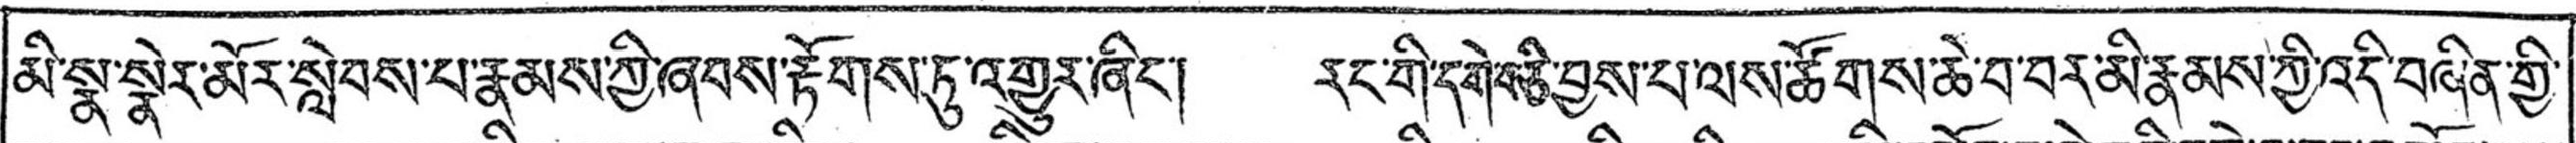མི་སྣ་སྣེར་མོར་སླེབས་པ་རྣམས་ཀྱི་ཞབས་རྟོགས་ཏུ་འགྱུར་ཞིང་། རང་གི་དགེ་བ་ཅི་བྱས་པ་ལས་ཚོགས་ཆེ་བ་བར་མི་རྣམས་ཀྱི་འདི་བཞིན་གྱི་
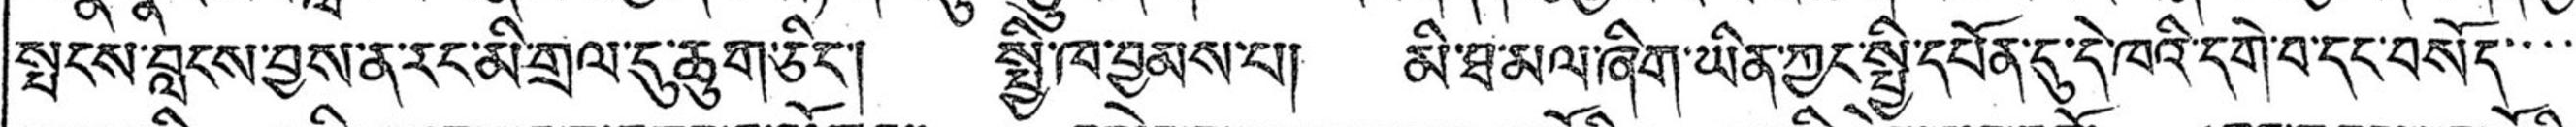སྤངས་བླངས་བྱས་ན་རང་མི་གྲལ་དུ་ཆུག་ཅིང་། སྤྱི་ཁ་བྱམས་པ། མི་ཐ་མལ་ཞིག་ཡིན་ཀྱང་སྤྱི་དཔོན་དུ་དེ་ཁའི་དགེ་བ་དང་བསོད་་་་
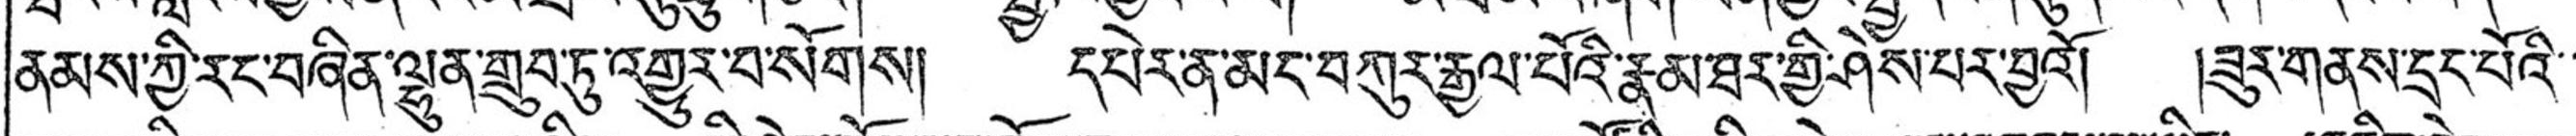ནམས་ཀྱི་རང་བཞིན་ལྷུན་གྲུབ་ཏུ་འགྱུར་བ་སོགས། དཔེར་ན་མང་བཀུར་རྒྱལ་པོའི་རྣམ་ཐར་གྱི་ཤེས་པར་བྱའོ། །ཟུར་གནས་དྲང་པོའི་་
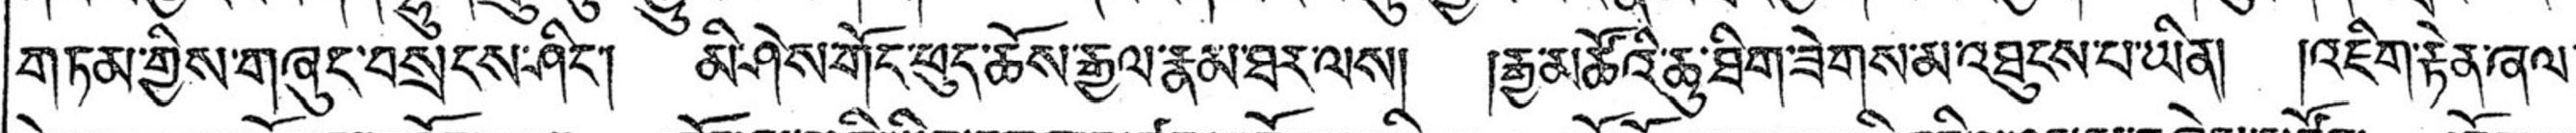གཏམ་གྱིས་གཞུང་བསྲངས་ཤིང་། མི་ཤེས་གོང་ཕུད་ཆོས་རྒྱལ་རྣམ་ཐར་ལས། །རྒྱ་མཚོའི་ཆུ་ཐིག་ཟེགས་མ་འཐུངས་པ་ཡིན། །འཇིག་རྟེན་ཞལ་
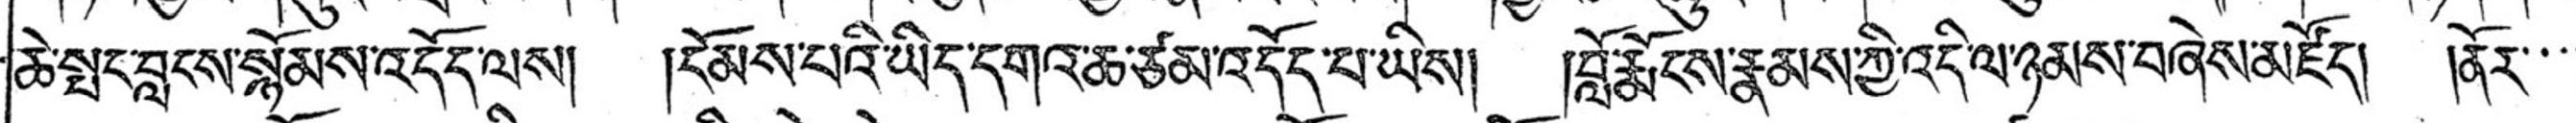ཆེ་སྤང་བླངས་སྙོམས་འདོད་ལས། །ངོམས་པའི་ཡིད་དགའ་ཆ་ཙམ་འདོད་པ་ཡིས། །བློ་རྨོངས་རྣམས་ཀྱི་འདི་ལ་ཉམས་བཞེས་མཛོད། །ནོར་་་
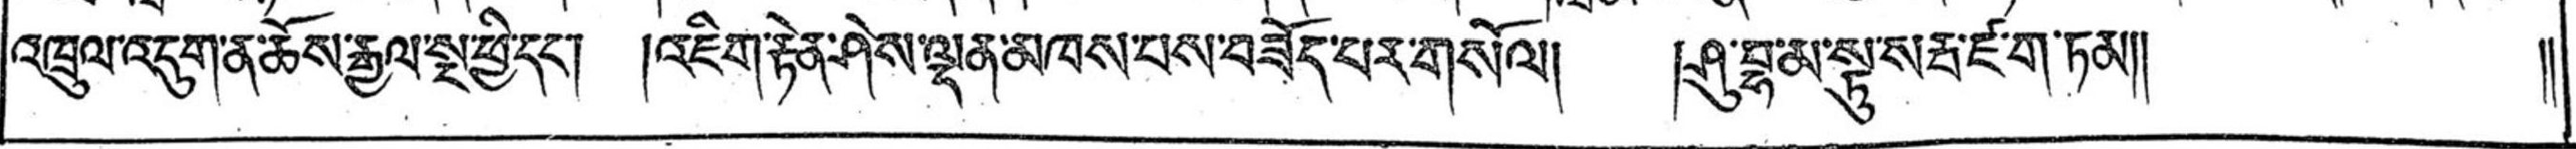འཁྲུལ་འདུག་ན་ཆོས་རྒྱལ་སྔ་ཕྱི་དང་། །འཇིག་རྟེན་ཤེས་ལྡན་མཁས་པས་བཟོད་པར་གསོལ། །ཤུ་བྷ་མ་སྟུ་སརྦ་ཛ་ག་ཏམ།།  །།
